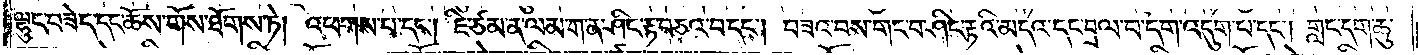ལྷུང་བཟེད་དང་ཆོས་གོས་ཐོགས་ཏེ། འཕགས་པ་དང༌། ཇི་ཙམ་ན་ལམ་ག་ན་ཤིང་རྟ་བཅའ་བ་དང༌། བཟའ་བས་གང་བ་ཤིང་རྟའི་མདའ་དང་བྲལ་བ་དག་འདུག་པ་དང༌། གླང་དག་ཆུ་
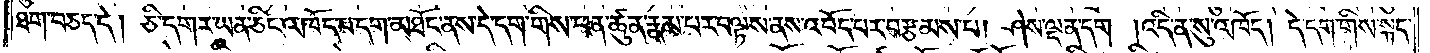ཐག་བཅད་དེ། ཅི་དགར་ཡན་ཅིང་འཁོད་པ་དག་མཐོང་ནས་དེ་དག་གིས་ཕན་ཚུན་རྣམ་པར་བལྟས་ནས་འབོད་པར་བརྩམས་པ། ཤེས་ལྡན་དག །འདི་ན་སུ་འཁོད། དེ་དག་གིས་སྐད་
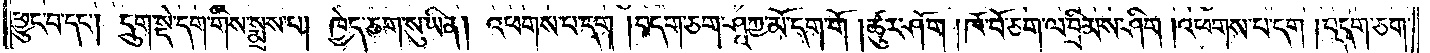ཕྱུང་བ་དང༌། དྲུག་སྡེ་དག་གིས་སྨྲས་པ། ཁྱེད་ཅག་སུ་ཡིན། འཕགས་པ་དག །བདག་ཅག་ཤཱཀྱ་མོ་དག་གོ །ཚུར་ཤོག །ཁོ་བོ་ཅག་ལ་བྲིམས་ཤིག །འཕགས་པ་དག །བདག་ཅག་
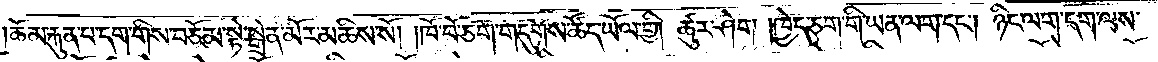ཆོམ་རྐུན་པ་དག་གིས་བཅོམ་སྟེ་སྒྲེན་མོར་མཆིས་སོ། །ཁོ་བོ་ཅག་གདུགས་ཚོད་ཡོལ་གྱི། ཚུར་ཤེག །ཁྱེད་ཅག་གི་ཡན་ལག་དང༌། ཉིང་ལག་དག་ལས་
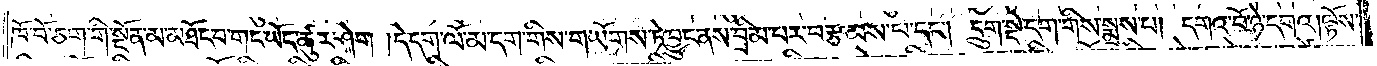ཁོ་བོ་ཅག་གི་སྔོན་མ་མཐོང་བ་གང་ཡོད་ཚུར་ཤེག །དེ་དག་ལོ་མ་དག་གིས་གཡོགས་ཏེ་བྱུང་ནས་བྲིམ་པར་བརྩམས་པ་དང༌། དྲུག་སྡེ་དག་གིས་སྨྲས་པ། དགའ་བོ་ཉེ་དགའ། ལྟོས་
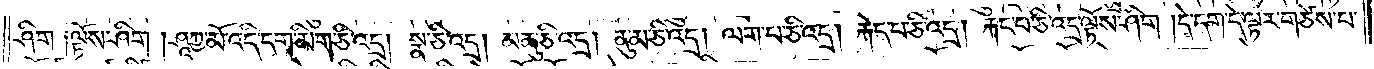ཤིག ༑ལྟོས་ཤིག །ཤཱཀྱ་མོ་འདི་དག་མིག་ཅི་འདྲ། སྣ་ཅི་འདྲ། མཆུ་ཅི་འདྲ། ནུ་མ་ཅི་འདྲ། ལག་པ་ཅི་འདྲ། རྐེད་པ་ཅི་འདྲ། རྐང་པ་ཅི་འདྲ་ལྟོས་ཤིག །དེ་དག་དེ་ལྟར་གཙེས་པ་
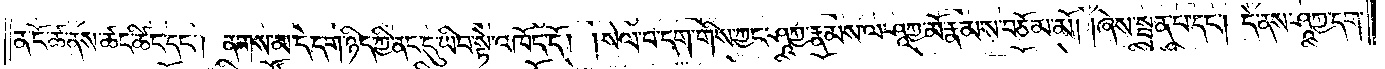ན་ངོ་ཚ་ནས་ཚང་ཚིང་དང༌། ནགས་མ་དེ་དག་ཉིད་ཀྱི་ནང་དུ་ཡིབ་སྟེ་འཁོད་དོ། །སེལ་བ་དག་གིས་ཀྱང་ཤཱཀྱ་རྣམས་ལ་ཤཱཀྱ་མོ་རྣམས་བཅོམ་མོ། །ཞེས་སྦྲན་པ་དང༌། དེ་ནས་ཤཱཀྱ་དག་
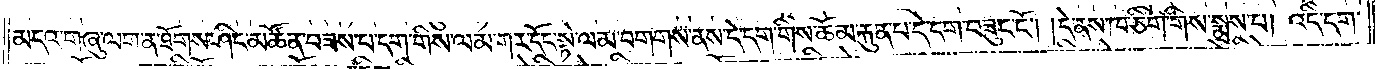མདའ་གཞུ་ལག་ན་ཐོགས་ཤིང་མཚོན་བཟས་པ་དག་གིས་ལམ་ཀར་དོང་སྟེ་ལམ་བགགས་ནས་དེ་དག་གིས་ཆོམ་རྐུན་པ་དེ་དག་བཟུང་ངོ༌། །དེ་ནས་ཁ་ཅིག་གིས་སྨྲས་པ། འདི་དག་
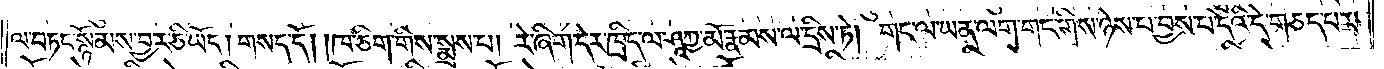ལ་བཏང་སྙོམས་བྱར་ཅི་ཡོད། གསད་དོ། །ཁ་ཅིག་གིས་སྨྲས་པ། རེ་ཞིག་དེར་ཁྲིད་ལ་ཤཱཀྱ་མོ་རྣམས་ལ་དྲིས་ཏེ། གང་ལ་ཡན་ལག་གང་གིས་ཉེས་པ་བྱས་པ་དེའི་དེ་གཅད་པར་
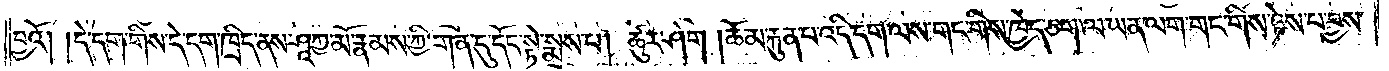བྱའོ། །དེ་དག་གིས་དེ་དག་ཁྲིད་ནས་ཤཱཀྱ་མོ་རྣམས་ཀྱི་གན་དུ་དོང་སྟེ་སྨྲས་པ། ཚུར་ཤེག །ཆོམ་རྐུན་པ་འདི་དག་ལས་གང་གིས་ཁྱེད་ཅག་ལ་ཡན་ལག་གང་གིས་ཉེས་པ་བྱས་
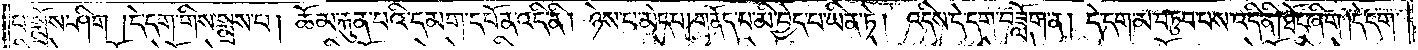པ་སྨྲོས་ཤིག །དེ་དག་གིས་སྨྲས་པ། ཆོམ་རྐུན་པའི་དམག་དཔོན་འདི་ནི། ཉེས་པ་མེད་པ། གནོད་པ་མི་བྱེད་པ་ཡིན་ཏེ། འདིས་དེ་དག་བཟློག་ན། དེ་དག་མ་བཏུབ་པས་འདི་ནི། ཐོང་ཞིག །དེ་དག་
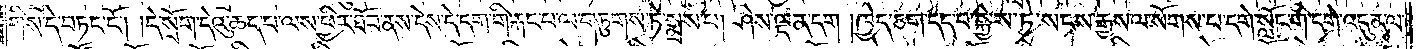གིས་དེ་བཏང་ངོ༌། །དེ་སྲོག་དེའུ་ཆད་པ་ལས་ཕྱིར་ཐོབ་ནས་དེས་དེ་དག་གི་རྐང་པ་ལ་གཏུགས་ཏེ་སྨྲས་པ། ཤེས་ལྡན་དག །ཁྱེད་ཅག་དད་པ་སྐྱེས་ཏེ་སངས་རྒྱས་ལ་སོགས་པ་དགེ་སློང་གི་དགེ་འདུན་ལ་
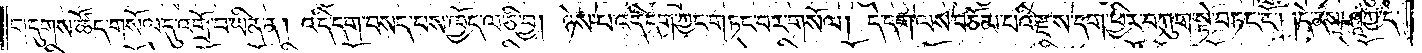གདུགས་ཚོད་གསོལ་དུ་འགྲོ་བ་ཡིན་ན། འདི་དག་བསད་པས་ཁྱོད་ལ་ཅི་བྱ། ཉེས་པ་འདི་དག་ཀྱང་གཏང་བར་གསོལ། དེ་དག་ལས་བཅོམ་པའི་རྫས་དག་ཕྱིར་བཀུག་སྟེ་བཏང་ངོ༌། །དེ་ནས་ཤཱཀྱ་དེ་
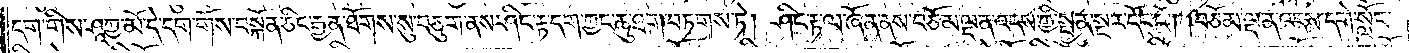དག་གིས་ཤཱཀྱ་མོ་དེ་དག་གོས་བསྐོན་ཅིང་རྒྱན་ཐོགས་སུ་བཅུག་ནས་ཤིང་རྟ་དག་ཀྱང་ཆུ་ཐག་བཏགས་ཏེ། ཤིང་རྟ་ལ་ཞོན་ནས་བཅོམ་ལྡན་འདས་ཀྱི་སྤྱན་སྔར་དོང་ངོ༌། །བཅོམ་ལྡན་འདས་དགེ་སློང་
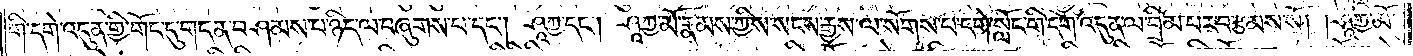གི་དགེ་འདུན་གྱི་གོང་དུ་གདན་བཤམས་པ་ཉིད་ལ་བཞུགས་པ་དང༌། ཤཱཀྱ་དང༌། ཤཱཀྱ་མོ་རྣམས་ཀྱིས་སངས་རྒྱས་ལ་སོགས་པ་དགེ་སློང་གི་དགེ་འདུན་ལ་བྲིམ་པར་བརྩམས་སོ། །ཤཱཀྱ་མོ་
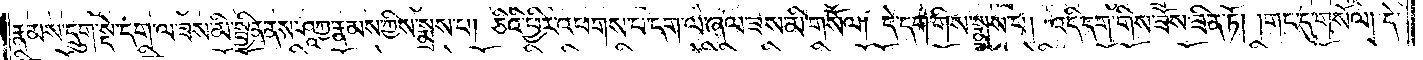རྣམས་དྲུག་སྡེ་དག་ལ་ཟས་མི་སྦྱིན་ནས་ཤཱཀྱ་རྣམས་ཀྱིས་སྨྲས་པ། ཅིའི་ཕྱིར་འཕགས་པ་དག་ལ་ཞལ་ཟས་མི་གསོལ། དེ་དག་གིས་སྨྲས་པ། འདི་དག་གིས་ཟོས་ཟིན་ཏོ། །གང་དུ་གསོལ། དེ་
